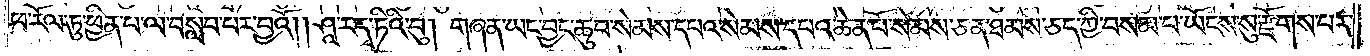ཕ་རོལ་ཏུ་ཕྱིན་པ་ལ་བསླབ་པར་བྱའོ། །ཤཱ་ར་དྭ་ཏིའི་བུ། གཞན་ཡང་བྱང་ཆུབ་སེམས་དཔའ་སེམས་དཔའ་ཆེན་པོ་སེམས་ཅན་ཐམས་ཅད་ཀྱི་བསམ་པ་ཡོངས་སུ་རྫོགས་པར་
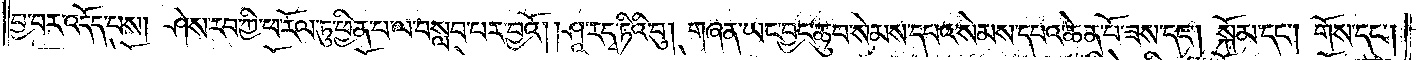བྱ་བར་འདོད་པས། ཤེས་རབ་ཀྱི་ཕ་རོལ་ཏུ་ཕྱིན་པ་ལ་བསླབ་པར་བྱའོ། །ཤཱ་ར་དྭ་ཏིའི་བུ། གཞན་ཡང་བྱང་ཆུབ་སེམས་དཔའ་སེམས་དཔའ་ཆེན་པོ་ཟས་དང༌། སྐོམ་དང༌། གོས་དང༌།
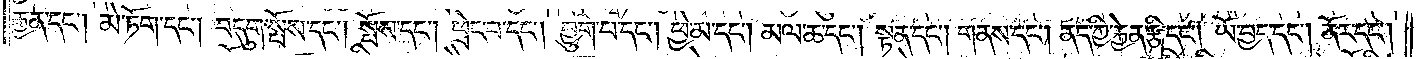རྒྱན་དང༌། མེ་ཏོག་དང༌། བདུག་སྤོས་དང༌། སྤོས་དང༌། ཕྲེང་བ་དང༌། བྱུག་པ་དང༌། ཕྱེ་མ་དང༌། མལ་ཆ་དང༌། སྟན་དང༌། གནས་དང༌། ནད་ཀྱི་རྐྱེན་རྩི་དང༌། ཡོ་བྱད་དང༌། ནོར་དང༌།
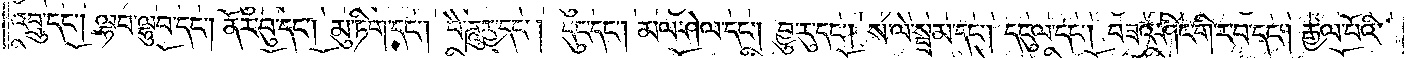འབྲུ་དང༌། ལྷབ་ལྷུབ་དང༌། ནོར་བུ་དང༌། མུ་ཏིག་དང༌། བཻ་ཌཱུཪྻ་དང༌། དུང་དང༌། མལ་ཤེལ་དང༌། བྱུ་རུ་དང༌། ས་ལེ་སྦྲམ་དང༌། དངུལ་དང༌། བཟའ་ཤིང་གི་ར་བ་དང༌། རྒྱལ་པོའི་
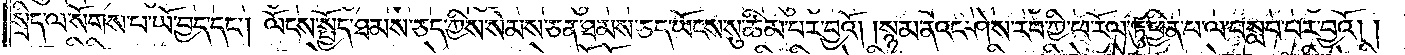སྲིད་ལ་སོགས་པ་ཡོ་བྱད་དང༌། ལོངས་སྤྱོད་ཐམས་ཅད་ཀྱིས་སེམས་ཅན་ཐམས་ཅད་ཡོངས་སུ་ཚིམ་པར་བྱའོ། །སྙམ་ནའང་ཤེས་རབ་ཀྱི་ཕ་རོལ་ཏུ་ཕྱིན་པ་ལ་བསླབ་པར་བྱའོ། །
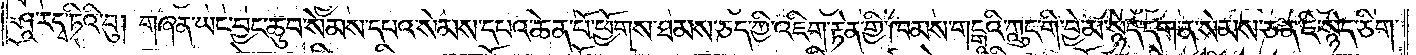ཤཱ་ར་དྭ་ཏིའི་བུ། གཞན་ཡང་བྱང་ཆུབ་སེམས་དཔའ་སེམས་དཔའ་ཆེན་པོ་ཕྱོགས་ཐམས་ཅད་ཀྱི་འཇིག་རྟེན་གྱི་ཁམས་གངྒཱའི་ཀླུང་གི་བྱེ་མ་སྙེད་དག་ན་སེམས་ཅན་ཇི་སྙེད་ཅིག་
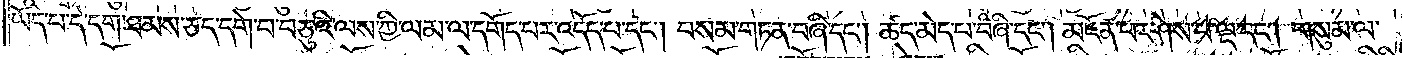ཡོད་པ་དེ་དག་ཐམས་ཅད་དགེ་བ་བཅུའི་ལས་ཀྱི་ལམ་ལ་དགོད་པར་འདོད་པ་དང༌། བསམ་གཏན་བཞི་དང༌། ཚད་མེད་པ་བཞི་དང༌། མངོན་པར་ཤེས་པ་ལྔ་དང༌། གསུམ་ལ་
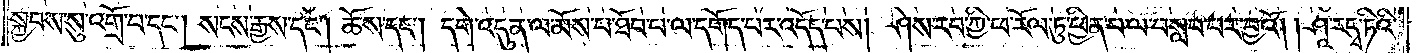སྐྱབས་སུ་འགྲོ་བ་དང༌། སངས་རྒྱས་དང༌། ཆོས་དང༌། དགེ་འདུན་ལ་མོས་པ་ཐོབ་པ་ལ་དགོད་པར་འདོད་པས། ཤེས་རབ་ཀྱི་ཕ་རོལ་ཏུ་ཕྱིན་པ་ལ་བསླབ་པར་བྱའོ། །ཤཱ་ར་དྭ་ཏིའི་
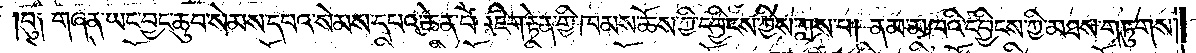བུ༑ གཞན་ཡང་བྱང་ཆུབ་སེམས་དཔའ་སེམས་དཔའ་ཆེན་པོ་འཇིག་རྟེན་གྱི་ཁམས་ཆོས་ཀྱི་དབྱིངས་ཀྱིས་ཀླས་པ། ནམ་མཁའི་དབྱིངས་ཀྱི་མཐས་གཏུགས་
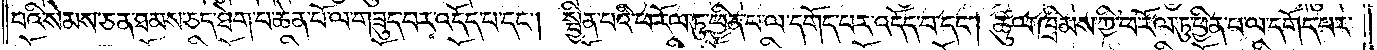པའི་སེམས་ཅན་ཐམས་ཅད་ཐེག་པ་ཆེན་པོ་ལ་གཟུད་པར་འདོད་པ་དང༌། སྦྱིན་པའི་ཕ་རོལ་ཏུ་ཕྱིན་པ་ལ་དགོད་པར་འདོད་པ་དང༌། ཚུལ་ཁྲིམས་ཀྱི་ཕ་རོལ་ཏུ་ཕྱིན་པ་ལ་དགོད་པར་
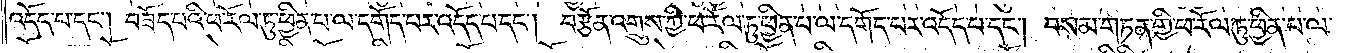འདོད་པ་དང༌། བཟོད་པའི་ཕ་རོལ་ཏུ་ཕྱིན་པ་ལ་དགོད་པར་འདོད་པ་དང༌། བརྩོན་འགྲུས་ཀྱི་ཕ་རོལ་ཏུ་ཕྱིན་པ་ལ་དགོད་པར་འདོད་པ་དང༌། བསམ་གཏན་གྱི་ཕ་རོལ་ཏུ་ཕྱིན་པ་ལ་
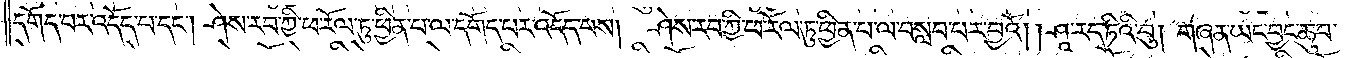དགོད་པར་འདོད་པ་དང༌། ཤེས་རབ་ཀྱི་ཕ་རོལ་ཏུ་ཕྱིན་པ་ལ་དགོད་པར་འདོད་པས། ཤེས་རབ་ཀྱི་ཕ་རོལ་ཏུ་ཕྱིན་པ་ལ་བསླབ་པར་བྱའོ། །ཤཱ་ར་དྭ་ཏིའི་བུ། གཞན་ཡང་བྱང་ཆུབ་
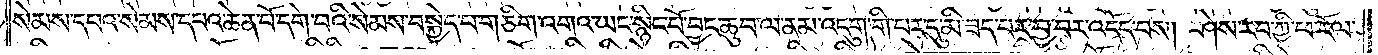སེམས་དཔའ་སེམས་དཔའ་ཆེན་པོ་དགེ་བའི་སེམས་བསྐྱེད་པ་གཅིག་འགའ་ཡང་སྙིང་པོ་བྱང་ཆུབ་ལ་ནམ་འདུག་གི་པར་དུ་མི་ཟད་པར་བྱ་བར་འདོད་པས། ཤེས་རབ་ཀྱི་ཕ་རོལ་
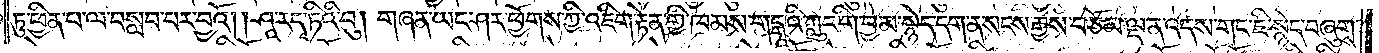ཏུ་ཕྱིན་པ་ལ་བསླབ་པར་བྱའོ། །ཤཱ་ར་དྭ་ཏིའི་བུ། གཞན་ཡང་ཤར་ཕྱོགས་ཀྱི་འཇིག་རྟེན་གྱི་ཁམས་གངྒཱའི་ཀླུང་གི་བྱེ་མ་སྙེད་དག་ན་སངས་རྒྱས་བཅོམ་ལྡན་འདས་གང་ཇི་སྙེད་བཞུགས་
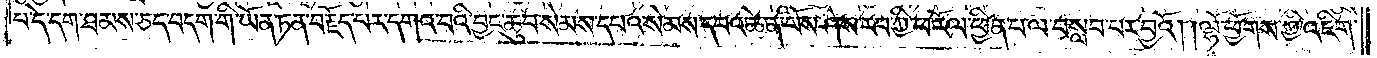པ་དེ་དག་ཐམས་ཅད་བདག་གི་ཡོན་ཏན་བརྗོད་པར་དགའ་བའི་བྱང་ཆུབ་སེམས་དཔའ་སེམས་དཔའ་ཆེན་པོས་ཤེས་རབ་ཀྱི་ཕ་རོལ་ཕྱིན་པ་ལ་བསླབ་པར་བྱའོ། །ལྷོ་ཕྱོགས་ཀྱི་འཇིག་
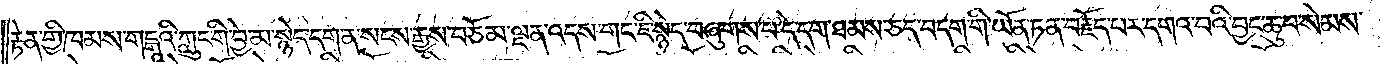རྟེན་གྱི་ཁམས་གངྒཱའི་ཀླུང་གི་བྱེ་མ་སྙེད་དག་ན་སངས་རྒྱས་བཅོམ་ལྡན་འདས་གང་ཇི་སྙེད་བཞུགས་པ་དེ་དག་ཐམས་ཅད་བདག་གི་ཡོན་ཏན་བརྗོད་པར་དགའ་བའི་བྱང་ཆུབ་སེམས་
